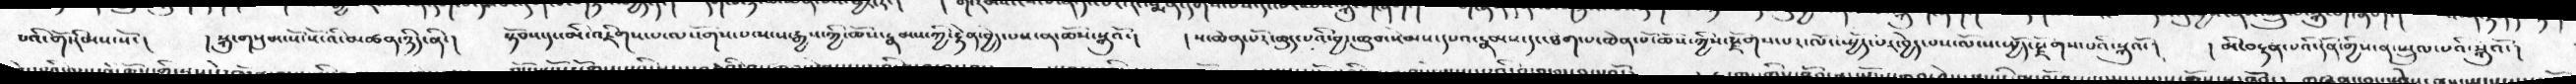པའི་གོ་རིམས་སོ་།   །སྐུ་གསུམ་སོ་སོ་འི་མཚན་ཉིད་ནི་།   སྟོབས་དང་མི་འཇིགས་པ་ལསོགས་པ་སངས་རྒྱས་ཀྱི་ཆོས་རྣམས་ཀྱི་རྟེན་བྱེད་པས་ན་ཆོས་སྐུའོ་།    །ས་ཆེན་པོར་ཆུད་པའི་བྱང་ཆུབ་སེམས་དཔའ་རྣམས་དང་ཐེག་པ་ཆེན་པོ་ཆོས་ཀྱིས་རྫོགས་པར་ལོང་སྤྱོད་པར་བྱེད་པས་ལོངས་སྤྱོད་རྫོགས་པའི་སྐུའོ་།   ། མི་བརྟན་པའི་དོན་གྱིས་ན་སྤྲུལ་པའི་སྐུའོ་།
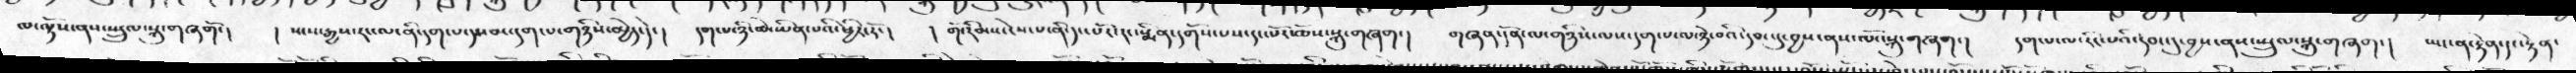ལ་ལྟོས་ནས་སྤྲུལ་སྐུ་གཞགོ་།   །སངས་རྒྱས་རང་ལ་ནི་དག་པ་དང་མ་དག་པ་གཉིས་མྱེད་དེ་།   དག་པ་ཉི་ཚེ་ཡིན་པའི་ཕྱིར་རོ།    ། གོ་རིམས་ངེས་པ་ནི་དང་པོར་རང་སྨིན་དགོས་པས་དང་པོར་ཆོས་སྐུ་གཞག་།    གཞན་དོན་ལ་གཉིས་ལས་དག་པ་ལ་ཉེ་བའི་དབང་དུ་བྱས་ནས་ལོང་སྐུ་གཞག་།   དག་པ་ལ་རིང་པའི་དབང་དུ་བྱས་ནས་སྤྲུལ་སྐུ་གཞག་།   ཡང་ན་རྟེན་དང་རྟེན་
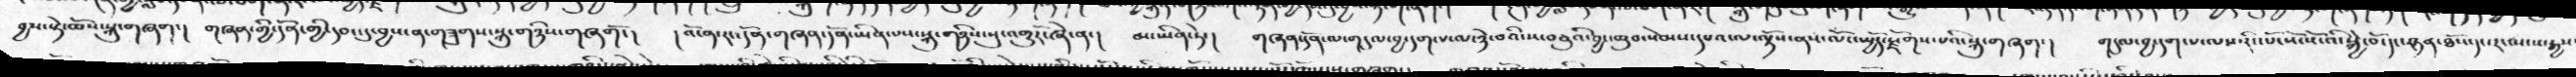བྱས་སྟེ་ཆོས་སྐུ་གཞག་།   གཞན་གྱི་དོན་གྱི་དབང་དུ་བྱས་ན་གཟུགས་སྐུ་གཉིས་གཞགོ་།    ། འོ་ན་རང་དོན་གཞན་དོན་ཡིན་པས་སྐུ་གཉིས་སུ་འགྱུརོ་ཞེ་ན་།   མ་ཡིན་ཏེ་།   གཞན་དོན་ལ་གདུལ་བྱ་དག་པ་ལ་ཉེ་བའི་ས་བཅུའི་བྱང་ཆུབ་སེམས་དཔའ་ལ་ལྟོས་ནས་ལོང་སྤྱོད་རྫོགས་པའི་སྐུ་གཞག་།   གདུལ་བྱ་དག་པ་ལས་རིང་པོ་སོ་སོ་འི་སྐྱེ་བོ་དང་ཉན་ཐོས་དང་རང་སངས་རྒྱས
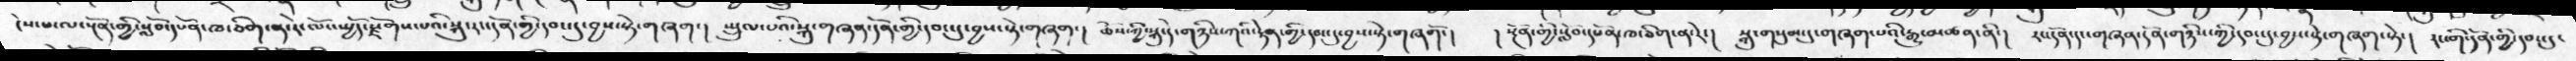ངེས་པ་ལ་སྔོན་གྱི་སློབ་དཔོན་ཁ་ཅིག་ན་རེ་ལོང་སྤྱོད་རྫོགས་པའི་སྐུ་དང་དོན་གྱི་དབང་དུ་བྱས་སྟེ་གཞག་།   སྤྲུལ་པའི་སྐུ་གཞན་དོན་གྱི་དབང་དུ་བྱས་སྟེ་གཞག་།   ཆོས་ཀྱི་སྐུ་དེ་གཉིས་ཀའི་རྟེན་གྱི་དབང་དུ་བྱས་སྟེ་གཞགོ་།   །སྔོན་གྱི་སློབ་དཔོན་ཁ་ཅིག་ན་རེ་།   སྐུ་གསུམ་དུ་གཞག་པའི་རྒྱུ་མཚན་ནི་།   རང་དོན་དང་གཞན་དོན་གཉིས་ཀྱི་དབང་དུ་བྱས་སྟེ་གཞག་སྟེ་།   རང་གི་དོན་གྱི་དབང་དུ་
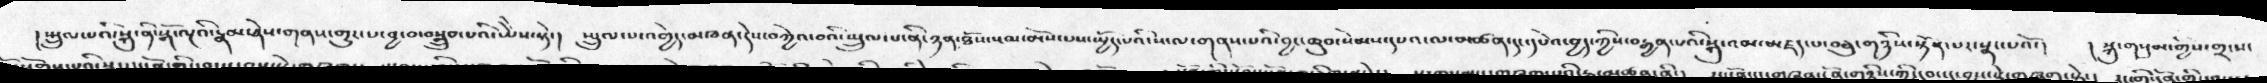།སྤྲུལ་པའི་སྐུ་ནི་སྒོ་ལྔའི་རྣམ་ཤེས་གནས་གྱུར་པ་བྱ་བ་བསྒྲུབ་པའི་ཡཻས་སྟེ་།   སྤྲུལ་པ་འགྱེད་མཁན་དེས་བཀྱེའ་བའི་སྤྲུལ་པ་ནི་ཉན་ཐོས་སམ་མོས་པས་སྤྱོད་པའི་ས་ལ་གནས་པའི་བྱང་ཆུབ་སེམས་དཔའ་ལ་མཚན་དང་དཔེའ་བྱད་ཀྱིས་བརྒྱན་པའི་སྐུ་འམ་མཛད་པ་བཅུ་གཉིས་སྟོན་པར་སྣང་པའོ་།   སྐུ་གསུམ་གྱིས་གྲངས་
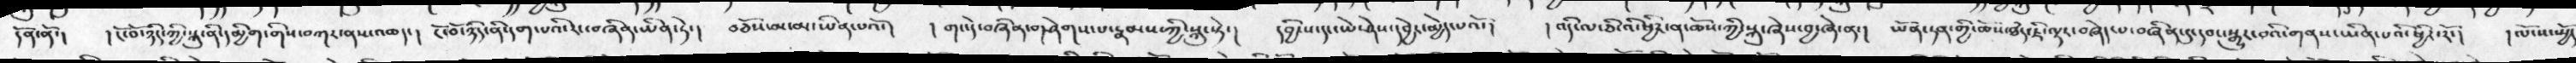དོན་ནོ་།  ། ངོ་བོ་ཉིད་ཀྱི་སྐུ་ནི་དམྱིག་གིས་བཀར་ནས་འཆད་།  ངོ་བོ་ཉིད་ནི་དག་པའི་རང་བཞིན་ཡིན་ཏེ་།  བཅོས་མ་མ་ཡིན་པའོ་།  །གང་དེ་བཞིན་གཤེགས་པ་རྣམས་ཀྱི་སྐུ་སྟེ་།  དབྱིངས་དང་ཡེ་ཤེས་དབྱེར་མྱེད་པའོ་།  །འདི་ལ་ཅི་འི་ཕྱིར་ན་ཆོས་ཀྱི་སྐུ་ཞེས་བྱ་ཞེ་ན་།  ཡོན་ཏན་གྱི་ཆོས་ཐཾད་ཇི་ལྟར་བཞེད་པ་བཞིན་དུ་དབང་སྒྱུར་བའི་གནས་ཡིན་པའི་ཕྱིར་རོ་།  །ལོངས་སྤྱོད
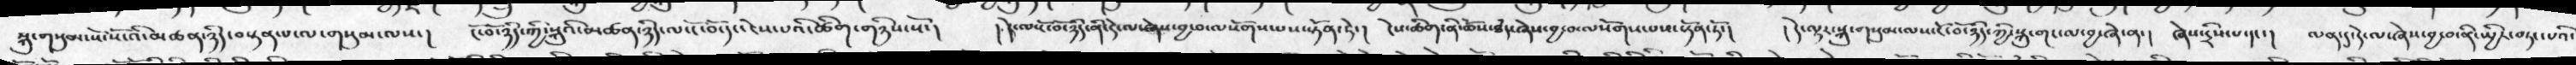སྐུ་གསུམ་སོ་སོ་འི་མཚན་ཉིད་བསྟན་པ་ལ་གསུམ་ལས་།  ངོ་བོ་ཉིད་གྱི་སྐུའི་མཚན་ཉིད་ལ་ངོ་བོ་དང་ངེས་པའི་ཚིག་གཉིས་སོ་།   །དེ་ལ་ངོ་བོ་ཉིད་ནི་དེ་ལ་ཞེས་བྱ་བ་ལསོགས་པས་སྟོན་ཏེ་།  ངེས་ཚིག་ནི་ཆོས་ཐཾད་ཞེས་བྱ་བ་ལསོགས་པས་སྟོན་ཏོ་།  །དེ་ལྟར་སྐུ་གསུམ་ལས་ངོ་བོ་ཉིད་ཀྱི་སྐུ་གང་ལ་བྱ་ཞེ་ན་།   ཞེས་དྲིས་པ་དང་།  ལན་དུ་དེ་ལ་ཞེས་བྱ་བ་ནི་སྤྱིར་བཏང་པའི
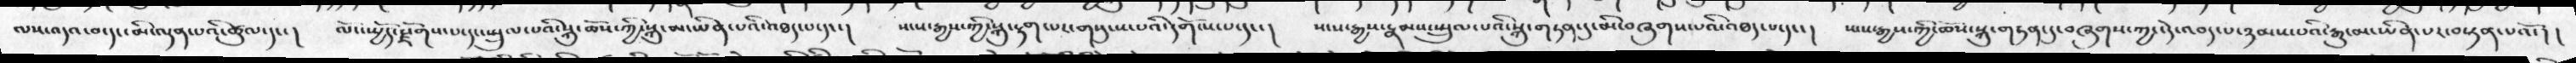ལས་འདའ་བ་དང་མི་ལྡན་པའི་ཚུལ་དང་།   ལོངས་སྤྱོད་རྫོགས་པ་དང་སྤྲུལ་པའི་སྐུ་ཆོས་ཀྱི་སྐུ་མ་ཡིན་པའི་འཐད་པ་དང་།  སངས་རྒྱས་གྱི་སྐུ་རྟག་པར་གསུངས་པའི་དགོངས་པ་དང་།  སངས་རྒྱས་རྣམས་སྤྲུལ་པའི་སྐུ་གཏན་དུ་མི་བཞུགས་པའི་འཐད་པ་དང་།  སངས་རྒྱས་ཀྱི་ཆོས་སྐུ་གཏན་དུ་བཞུགས་ཀྱང་དེ་འབད་པ་ཉམས་པའི་རྒྱུ་མ་ཡིན་པར་བསྟན་པའོ་། །
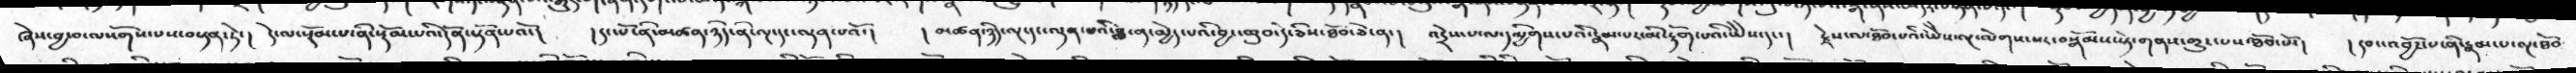ཞེས་བྱ་བ་ལསོགས་པས་བསྟན་ཏེ་།   དེ་ལ་སྡོམ་པ་ནི་སྡོམ་པའི་དོན་སྟོན་པའོ་།  །དང་པོ་ནི་མཚན་ཉིད་ནི་ལྔ་དང་ལྡན་པའོ་།   །མཚན་ཉིད་ལྔ་དང་ལྡན་པའི་བླ་ན་མྱེད་པའི་བྱང་ཆུབ་དེ་ཅིས་ཐོབ་ཅེ་ན་།  འདྲེས་པ་ལ་དམྱིགས་པའི་རྣམ་པར་མི་རྟོག་པའི་ཡཻས་དང་།  རྗེས་ལ་ཐོབ་པའི་ཡཻས་ལྔ་ལེགས་པར་བསྒོམས་སྟེ་གནས་གྱུར་པས་ཐོབ་པོ་།   །རབ་འབྱོར་པ་ནི་རྣམ་པ་ལྔ་ཐོབ
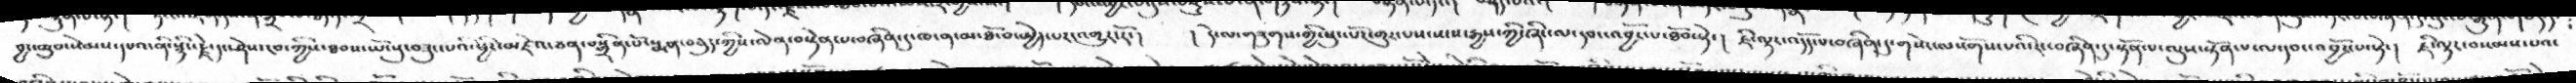བྱང་ཆུབ་སེམས་དཔའ་ནི་སྙིང་རྗེ་དང་ཤེས་རབ་ཀྱིས་ཐབས་ཡོངསུ་བཟུང་པའི་མཛེའ་ཅན་བསྒྲིན་པོ་སྨན་བཅུད་ཀྱིས་ལེན་བསྟེན་པ་བཞིན་དུ་ཁ་ན་མ་ཐོ་བ་སྤྱོད་པར་འགྱུར་རོ་།   །དེ་ལ་གཟུངས་ཀྱི་ཕུང་པོ་གྱུར་པས་སངས་རྒྱས་ཀྱི་ཞིང་ལ་དབང་འབྱོར་པ་ཐོབ་སྟེ་།   ཇི་ལྟར་འདོད་པ་བཞིན་དུ་སྟོན་པ་ལུས་སྟོན་པ་ལ་དབང་འབྱོར་པ་སྟེ་།  ཇི་ལྟར་བསམས་པའ་
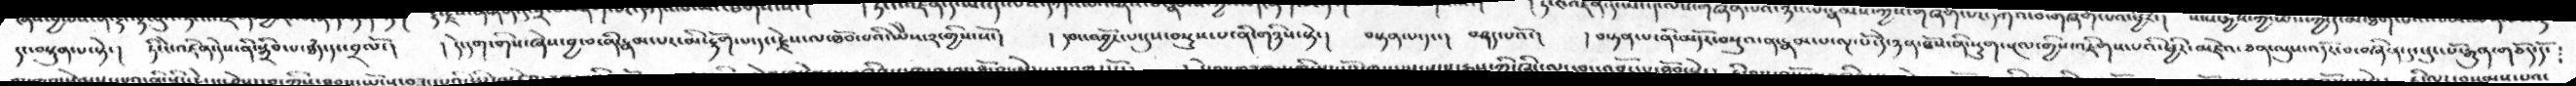དང་བསྟུན་པ་སྟེ་།   ཏིངངེ་འཛིན་དེས་ནི་སྒྲིབ་པ་ཐཾད་དང་བྲལོ་།   །དེ་དག་གིས་ཞེས་བྱ་བ་ནི་རྣམ་པར་མི་རྟོག་པ་དང་རྗེས་ལ་ཐོབ་པའི་ཡཻས་༢་གྱིས་སོ་།   །དབང་འབྱོར་པ་དུས་བསྡུས་པ་ནི་གཉིས་སྟེ་།  བསྟན་པ་དང་།   བཤད་པའོ་།   བསྟན་པ་ནི་མདོར་བསྡུའ་ན་རྣམ་པ་ལྔ་པོ་དེ་ཉན་ཐོས་ནི་སྡུག་སྔལ་གྱིས་འཇིགས་པའི་ཕྱིར་མཛེའ་ཅན་ལུས་འདོར་བ་བཞིན་དུ་ཕུང་པོ་རྒྱུན་གཅོད་དོ་
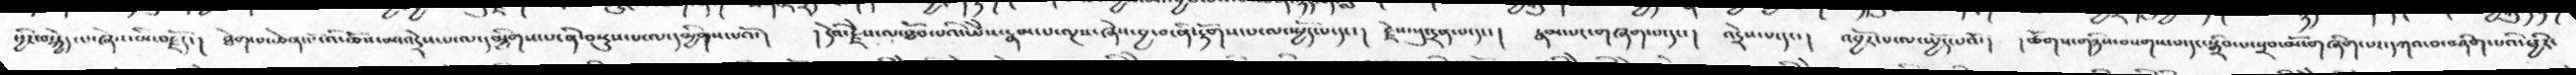ཕྱིར་བསྐྱེད་པ་ཞེས་མི་བརྗོད་།   ཐེན་པ་ཆེན་པོ་འི་ཆོས་མ་འདྲེས་པ་ལ་དམྱིགས་པ་ནི་བསྡུས་པ་ལ་དམྱིགས་པའོ་།   །དེའི་རྗེས་ལ་ཐོབ་པའི་ཡཻས་རྣམ་པ་ལྔས་ཞེས་བྱ་བ་ནི་རྟོགས་པ་ལ་སྤྱོད་པ་དང་།   རྗེས་སུ་དྲན་པ་དང་།   རྣམ་པར་གཞག་པ་དང་།   འདྲེས་པ་དང་།   འབྱོར་པ་ལ་སྤྱོད་པའོ་།   ཚོགས་གཉིས་བསགས་པ་དང་སྒྲིབ་པ་སྲབ་མོ་གཞིག་པར་དཀའ་བ་བཤིག་པའི་ཕྱིར་
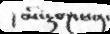།  མི་རྟག་ཕན་
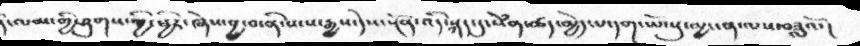དེ་ལམ་གྱི་ཤུགས་ཀྱི་ཕྱིར་ཞེས་བྱ་བ་ནི་སངས་རྒྱས་དེས་སྔོན་འདི་སྐད་དུ་སེཾན་ཚད་མྱེད་པ་དག་ཡོངསུ་མྱ་ངན་ལས་བཟླའོ་།
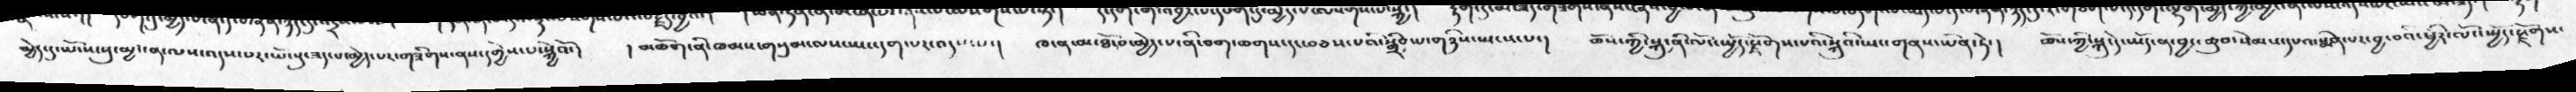མྱེད་དུ་ཡོངས་སུ་མྱ་ངན་ལས་འདས་པར་ཡོངསུ་ཟད་པ་མྱེད་པར་གཟིགས་ནས་དགྱེས་པ་སྐྱེའོ་།   །མཆོག་ནི་ཁམས་གསུམ་ལས་ཡང་དག་པར་འདས་པ་།   ཁ་ན་མ་ཐོ་བ་མྱེད་པ་ནི་བག་ཆགས་དང་བཅས་པའི་སྒྲིབ་པ་གཉིས་སྤངས་པ་།  ཆོས་ཀྱི་སྐུ་ནི་ལོང་སྤྱོད་རྫོགས་པའི་སྐུའི་ཡང་གནས་ཡིན་ཏེ་།  ཆོས་ཀྱི་སྐུ་དེ་ཡོད་ན་བྱང་ཆུབ་སེམས་དཔའ་སྨིན་པར་བྱ་བའི་ཕྱིར་ལོང་སྤྱོད་རྫོགས་
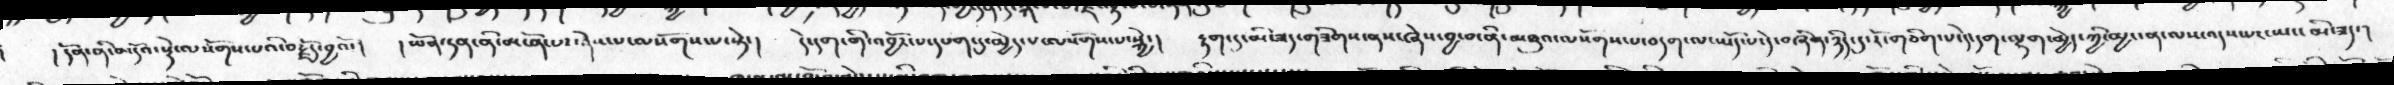།དོན་ནི་མདོའ་སྡེ་ལསོགས་པའི་བརྗོད་བྱའོ་།   །ཡོན་ཏན་ནི་མངོན་པར་ཤེས་པ་ལསོགས་པ་སྟེ་།   དེ་དག་གི་འབྱོར་པ་དཔག་དུ་མེད་པ་ལསོགས་པ་སྐྱེ་།   རྟག་དུ་མི་ཟད་གཟིགས་ནས་ཞེས་བྱ་བ་ནི་མཐུའ་ལསོགས་པ་བདག་ལ་ཡོད་པ་དེ་བཞིན་ཉིད་དུ་རོ་གཅིག་པ་དེ་དག་ལྷག་མྱེད་ཀྱི་མྱ་ངན་ལས་འདས་པར་ཡང་མི་ཟད་།
